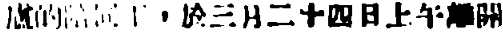廬的陪同下，於三月二十四日上午離開
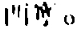西寧。
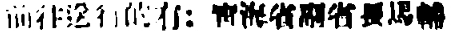前往送行的有：靑海省副省長馬輔
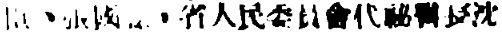臣、張國聲，省人民委員會代祕書長沈
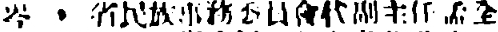岑 ， 省民族事務委員會代副主任孟全
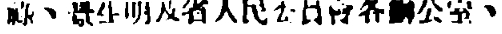祿、景生明及省人民委員會各辦公室、
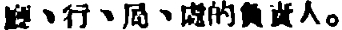廳、行、局、處的負責人。
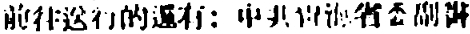前往送行的還有：中共靑海省委副書
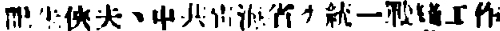記朱俠夫、中共靑海省委統一戰綫工作
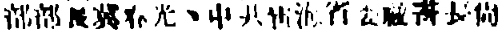部部長冀春光、中共靑海省委祕書長尚
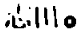志田。
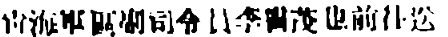靑海軍區副司令員李書茂也前往送
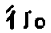行。
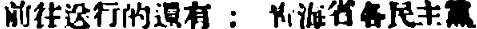前往送行的還有：靑海省各民主黨
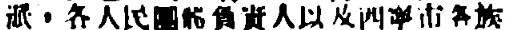派，各人民團體負責人以及西寧市各族
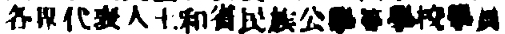各界代表人士和省民族公學等學校學員
